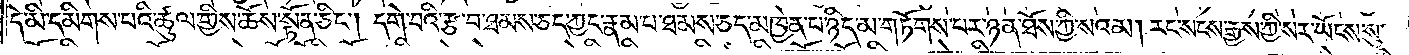དེ་མི་དམིགས་པའི་ཚུལ་གྱིས་ཆོས་སྟོན་ཅིང༌། དགེ་བའི་རྩ་བ་ཐམས་ཅད་ཀྱང་རྣམ་པ་ཐམས་ཅད་མཁྱེན་པ་ཉིད་མ་གཏོགས་པར་ཉན་ཐོས་ཀྱི་སའམ། རང་སངས་རྒྱས་ཀྱི་སར་ཡོངས་སུ་
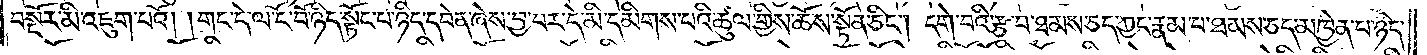བསྔོར་མི་འཇུག་པའོ། །གང་དེ་ལ་ངོ་བོ་ཉིད་སྟོང་པ་ཉིད་དབེན་ཞེས་བྱ་བར་དེ་མི་དམིགས་པའི་ཚུལ་གྱིས་ཆོས་སྟོན་ཅིང༌། དགེ་བའི་རྩ་བ་ཐམས་ཅད་ཀྱང་རྣམ་པ་ཐམས་ཅད་མཁྱེན་པ་ཉིད་
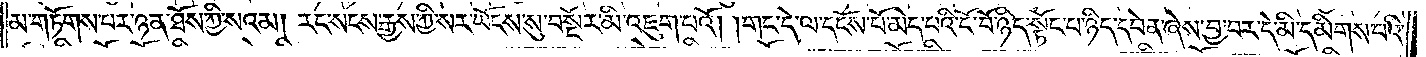མ་གཏོགས་པར་ཉན་ཐོས་ཀྱི་སའམ། རང་སངས་རྒྱས་ཀྱི་སར་ཡོངས་སུ་བསྔོར་མི་འཇུག་པའོ། །གང་དེ་ལ་དངོས་པོ་མེད་པའི་ངོ་བོ་ཉིད་སྟོང་པ་ཉིད་དབེན་ཞེས་བྱ་བར་དེ་མི་དམིགས་པའི་
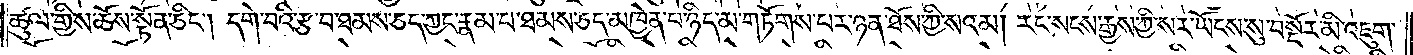ཚུལ་གྱིས་ཆོས་སྟོན་ཅིང༌། དགེ་བའི་རྩ་བ་ཐམས་ཅད་ཀྱང་རྣམ་པ་ཐམས་ཅད་མཁྱེན་པ་ཉིད་མ་གཏོགས་པར་ཉན་ཐོས་ཀྱི་སའམ། རང་སངས་རྒྱས་ཀྱི་སར་ཡོངས་སུ་བསྔོར་མི་འཇུག་
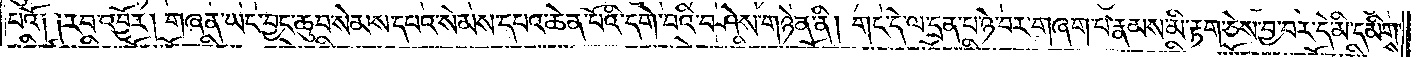པའོ༑ ༑རབ་འབྱོར། གཞན་ཡང་བྱང་ཆུབ་སེམས་དཔའ་སེམས་དཔའ་ཆེན་པོའི་དགེ་བའི་བཤེས་གཉེན་ནི། གང་དེ་ལ་དྲན་པ་ཉེ་བར་གཞག་པ་རྣམས་མི་རྟག་ཅེས་བྱ་བར་དེ་མི་དམིགས་
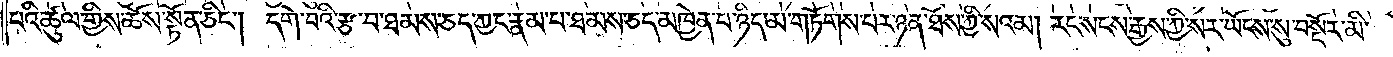པའི་ཚུལ་གྱིས་ཆོས་སྟོན་ཅིང༌། དགེ་བའི་རྩ་བ་ཐམས་ཅད་ཀྱང་རྣམ་པ་ཐམས་ཅད་མཁྱེན་པ་ཉིད་མ་གཏོགས་པར་ཉན་ཐོས་ཀྱི་སའམ། རང་སངས་རྒྱས་ཀྱི་སར་ཡོངས་སུ་བསྔོར་མི་
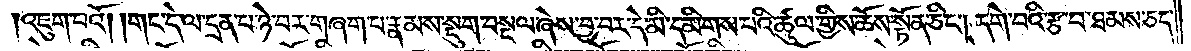འཇུག་པའོ། །གང་དེ་ལ་དྲན་པ་ཉེ་བར་གཞག་པ་རྣམས་སྡུག་བསྔལ་ཞེས་བྱ་བར་དེ་མི་དམིགས་པའི་ཚུལ་གྱིས་ཆོས་སྟོན་ཅིང༌། དགེ་བའི་རྩ་བ་ཐམས་ཅད་
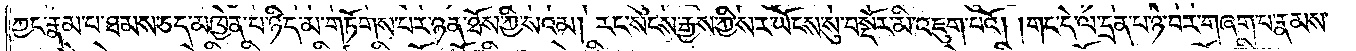ཀྱང་རྣམ་པ་ཐམས་ཅད་མཁྱེན་པ་ཉིད་མ་གཏོགས་པར་ཉན་ཐོས་ཀྱི་སའམ། རང་སངས་རྒྱས་ཀྱི་སར་ཡོངས་སུ་བསྔོར་མི་འཇུག་པའོ། །གང་དེ་ལ་དྲན་པ་ཉེ་བར་གཞག་པ་རྣམས་
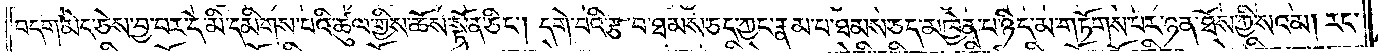བདག་མེད་ཅེས་བྱ་བར་དེ་མི་དམིགས་པའི་ཚུལ་གྱིས་ཆོས་སྟོན་ཅིང༌། དགེ་བའི་རྩ་བ་ཐམས་ཅད་ཀྱང་རྣམ་པ་ཐམས་ཅད་མཁྱེན་པ་ཉིད་མ་གཏོགས་པར་ཉན་ཐོས་ཀྱི་སའམ། རང་
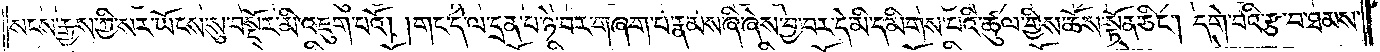སངས་རྒྱས་ཀྱི་སར་ཡོངས་སུ་བསྔོར་མི་འཇུག་པའོ། །གང་དེ་ལ་དྲན་པ་ཉེ་བར་གཞག་པ་རྣམས་ཞི་ཞེས་བྱ་བར་དེ་མི་དམིགས་པའི་ཚུལ་གྱིས་ཆོས་སྟོན་ཅིང༌། དགེ་བའི་རྩ་བ་ཐམས་
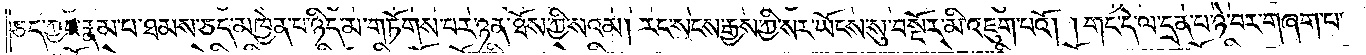ཅད་ཀྱང་རྣམ་པ་ཐམས་ཅད་མཁྱེན་པ་ཉིད་མ་གཏོགས་པར་ཉན་ཐོས་ཀྱི་སའམ། རང་སངས་རྒྱས་ཀྱི་སར་ཡོངས་སུ་བསྔོར་མི་འཇུག་པའོ། །གང་དེ་ལ་དྲན་པ་ཉེ་བར་གཞག་པ་
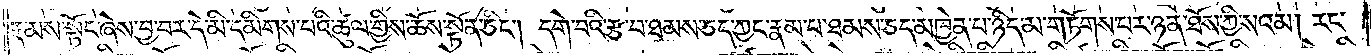རྣམས་སྟོང་ཞེས་བྱ་བར་དེ་མི་དམིགས་པའི་ཚུལ་གྱིས་ཆོས་སྟོན་ཅིང༌། དགེ་བའི་རྩ་བ་ཐམས་ཅད་ཀྱང་རྣམ་པ་ཐམས་ཅད་མཁྱེན་པ་ཉིད་མ་གཏོགས་པར་ཉན་ཐོས་ཀྱི་སའམ། རང་
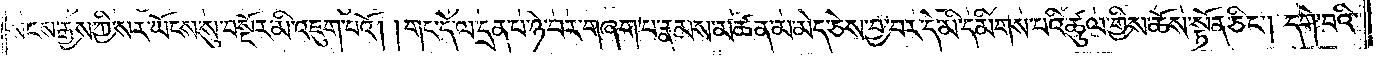སངས་རྒྱས་ཀྱི་སར་ཡོངས་སུ་བསྔོར་མི་འཇུག་པའོ། །གང་དེ་ལ་དྲན་པ་ཉེ་བར་གཞག་པ་རྣམས་མཚན་མ་མེད་ཅེས་བྱ་བར་དེ་མི་དམིགས་པའི་ཚུལ་གྱིས་ཆོས་སྟོན་ཅིང༌། དགེ་བའི་
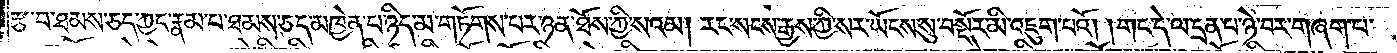རྩ་བ་ཐམས་ཅད་ཀྱང་རྣམ་པ་ཐམས་ཅད་མཁྱེན་པ་ཉིད་མ་གཏོགས་པར་ཉན་ཐོས་ཀྱི་སའམ། རང་སངས་རྒྱས་ཀྱི་སར་ཡོངས་སུ་བསྔོར་མི་འཇུག་པའོ། །གང་དེ་ལ་དྲན་པ་ཉེ་བར་གཞག་པ་
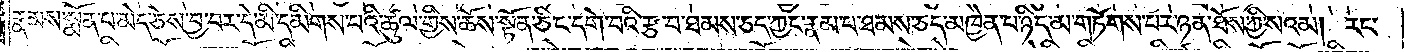རྣམས་སྨོན་པ་མེད་ཅེས་བྱ་བར་དེ་མི་དམིགས་པའི་ཚུལ་གྱིས་ཆོས་སྟོན་ཅིང་དགེ་བའི་རྩ་བ་ཐམས་ཅད་ཀྱང་རྣམ་པ་ཐམས་ཅད་མཁྱེན་པ་ཉིད་མ་གཏོགས་པར་ཉན་ཐོས་ཀྱི་སའམ། རང་
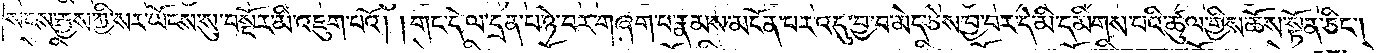སངས་རྒྱས་ཀྱི་སར་ཡོངས་སུ་བསྔོར་མི་འཇུག་པའོ། །གང་དེ་ལ་དྲན་པ་ཉེ་བར་གཞག་པ་རྣམས་མངོན་པར་འདུ་བྱ་བ་མེད་ཅེས་བྱ་བར་དེ་མི་དམིགས་པའི་ཚུལ་གྱིས་ཆོས་སྟོན་ཅིང༌།
